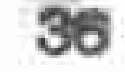36
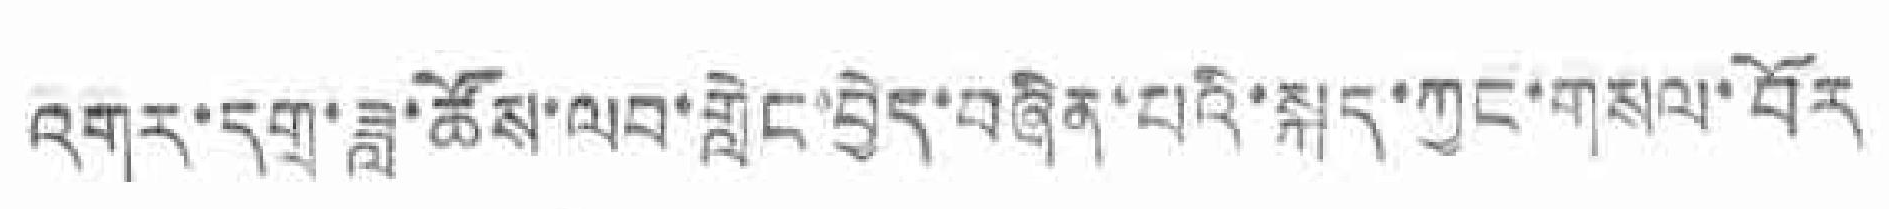འགར་དགྲ་ཟླ་ཚོས་ལབ་གླེང་བྱེད་བཞིན་པའི་སྐད་ཀྱང་གསལ་བོར
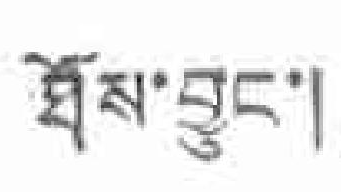ཐོས་བྱུང་།
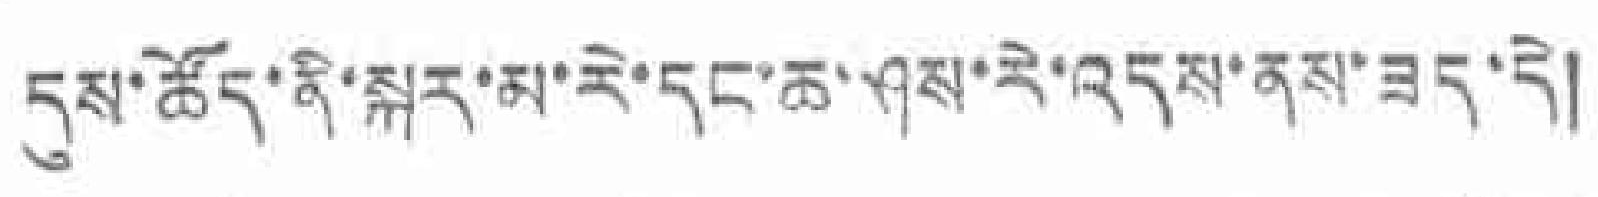དུས་ཚོད་ནི་སྐར་མ་རེ་དང་ཆ་ཤས་རེ་འདས་ནས་ཟད་དེ།
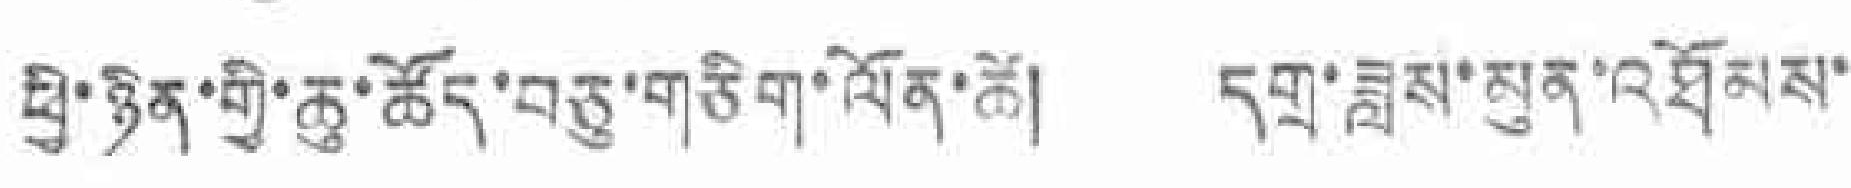ཕྱི་ཉིན་གྱི་ཆུ་ཚོད་བཅུ་གཅིག་ལོན་ཚེ། དགྲ་ཟླས་མུན་འཐོམས་
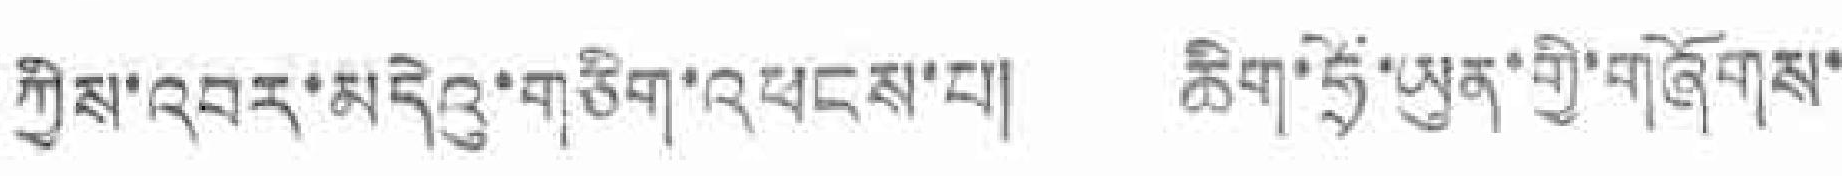ཀྱིས་འབར་མདེའུ་གཅིག་འཕངས་པ། ཆིག་ཧྲོ་ཡུན་གྱི་གཞོགས་
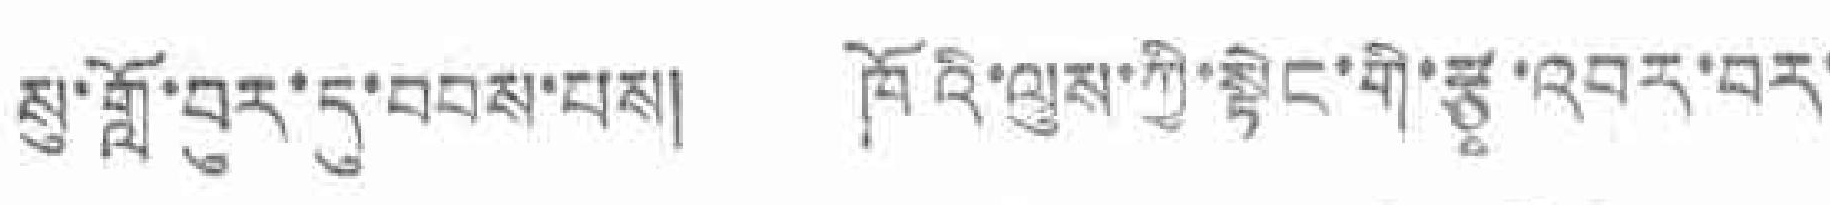སུ་གློ་བུར་དུ་བབས་པས། ཁོའི་ལུས་ཀྱི་སྟེང་གི་རྩྭ་འབར་བར་
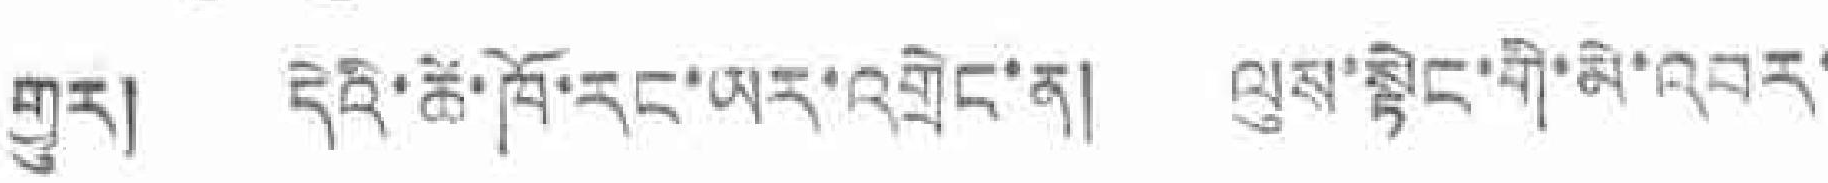གྱུར། དེའི་ཚེ་ཁོ་རང་ཡར་འགྲེང་ན། ལུས་སྟེང་གི་མེ་འབར་
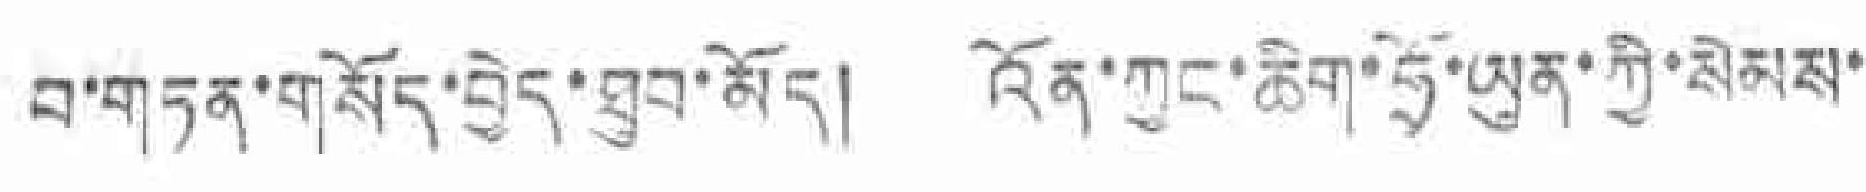བ་གཏན་གསོད་བྱེད་ཐུབ་མོད། འོན་ཀྱང་ཆིག་ཧྲོ་ཡུན་ཀྱི་སེམས་
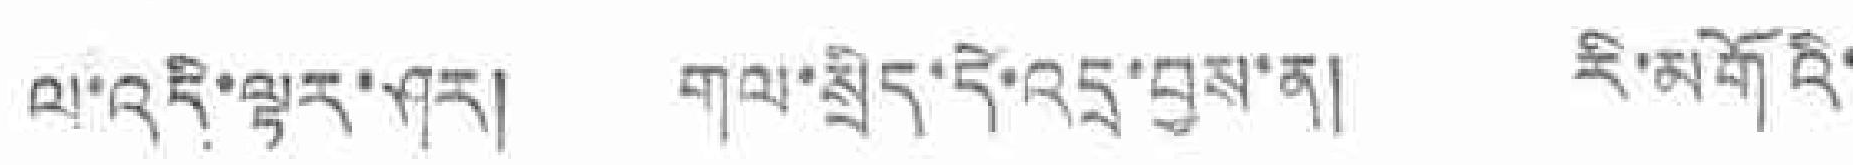ལ་འདི་ལྟར་ཤར། གལ་སྲིད་དེ་འདྲ་བྱས་ན། རི་མགོའི་
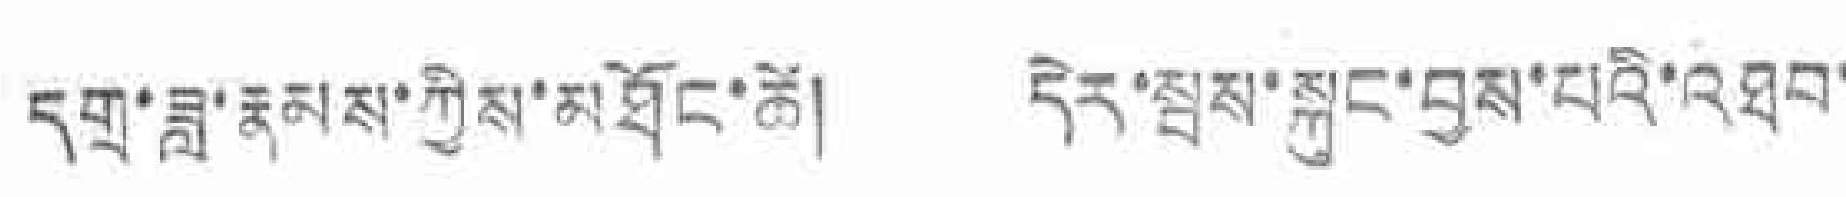དགྲ་ཟླ་རྣམས་ཀྱིས་མཐོང་ཚེ། དེར་སྦས་སྐུང་བྱས་པའི་འཐབ་
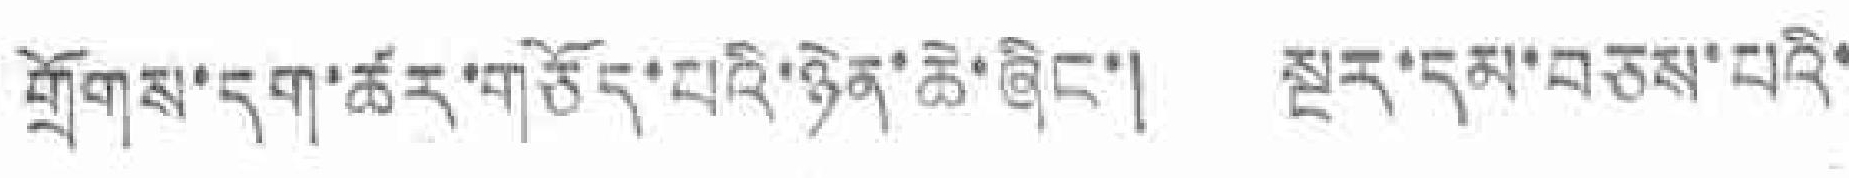གྲོགས་དག་ཚར་གཅོད་པའི་ཉེན་ཆེ་ཞིང་། སྔར་དམ་བཅས་པའི་
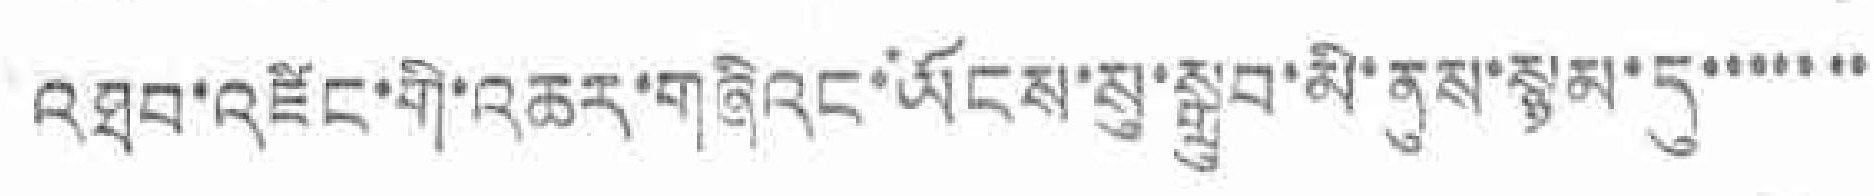འཐབ་འཛིང་གི་འཆར་གཞིའང་ཡོངས་སུ་སྒྲུབ་མི་ནུས་སྙམ་དུ་་་་་་་
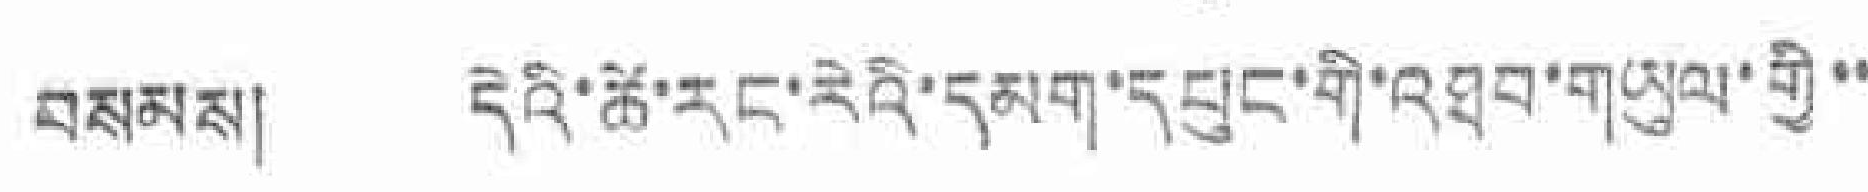བསམས། དེའི་ཚེ་རང་རེའི་དམག་དཔུང་གི་འཐབ་གཡུལ་གྱི་་
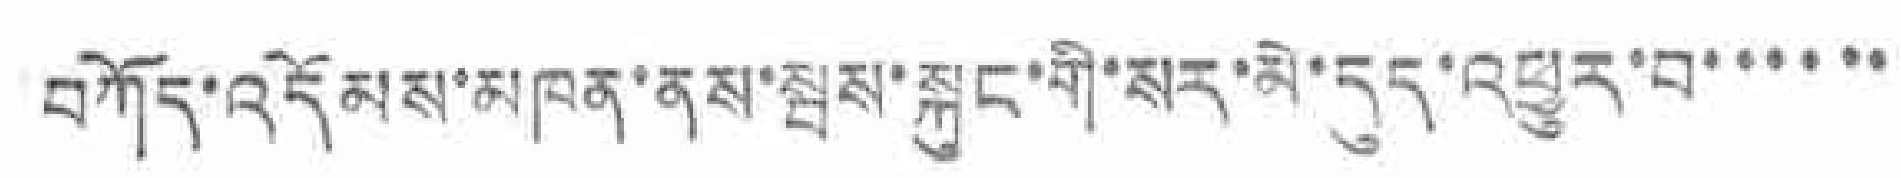བཀོད་འདོམས་མཁན་ནས་སྦས་སྐུང་གི་སར་མེ་དུད་འཕྱུར་བ་་་་་་
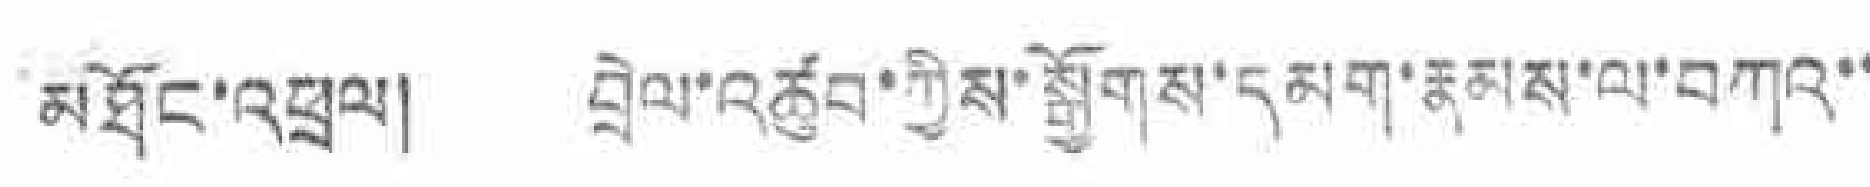མཐོང་འཕྲུལ། བྲེལ་འཚུབ་ཀྱིས་སྒྱོགས་དམག་རྣམས་ལ་བཀའ་་
